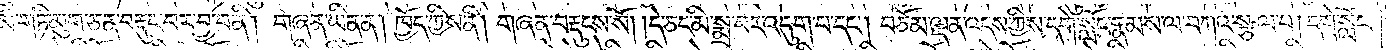མི་གཏི་མུག་ཅན་བརྡུང་བར་བྱ་བ་ནི། གཞན་ཡིན་ན། ཁྱོད་ཀྱིས་ནི། གཞན་བརྡུངས་སོ། །དེ་ཅང་མི་སྨྲ་བར་འདུག་པ་དང༌། བཅོམ་ལྡན་འདས་ཀྱིས་དགེ་སློང་རྣམས་ལ་བཀའ་སྩལ་པ། དགེ་སློང་
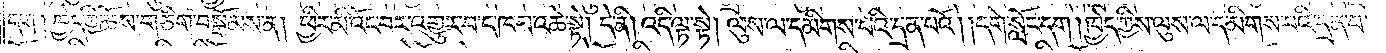དག །ཁྱེད་ཀྱི་ཆོས་གཅིག་བསྒོམས་ན། ཕྱིར་མི་འོང་བར་འགྱུར་བ་ང་ཁས་འཆེ་སྟེ། དེ་ནི། འདི་ལྟ་སྟེ། ལུས་ལ་དམིགས་པའི་དྲན་པའོ། །དགེ་སློང་དག །ཁྱེད་ཀྱིས་ལུས་ལ་དམིགས་པའི་དྲན་པ་
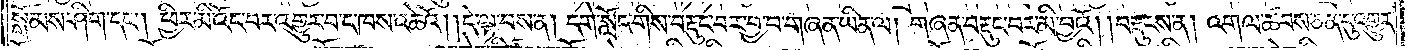སྒོམས་ཤིག་དང༌། ཕྱིར་མི་འོང་བར་འགྱུར་བ་ང་ཁས་འཆེའོ། །དེ་ལྟ་བས་ན། དགེ་སློང་གིས་བརྡུང་བར་བྱ་བ་གཞན་ཡིན་ལ། གཞན་བརྡུང་བར་མི་བྱའོ། །བརྡུངས་ན། འགལ་ཚབས་ཅན་དུ་འགྱུར་
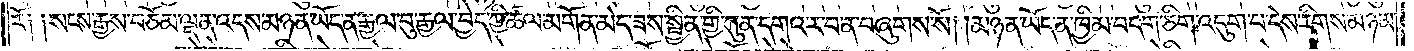རོ༑ ༑སངས་རྒྱས་བཅོམ་ལྡན་འདས་མཉན་ཡོད་ན་རྒྱལ་བུ་རྒྱལ་བྱེད་ཀྱི་ཚལ་མགོན་མེད་ཟས་སྦྱིན་གྱི་ཀུན་དགའ་ར་བ་ན་བཞུགས་སོ། །མཉན་ཡོད་ན་ཁྱིམ་བདག་ཅིག་འདུག་པ་དེས་རིགས་མཉམ་
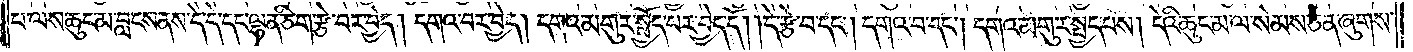པ་ལས་ཆུང་མ་བླངས་ནས་དེ་དེ་དང་ལྷན་ཅིག་རྩེ་བར་བྱེད། དགའ་བར་བྱེད། དགའ་མགུར་སྤྱོད་པར་བྱེད་དོ། །དེ་རྩེ་བ་དང༌། དགའ་བ་དང༌། དགའ་མགུར་སྤྱད་པས། དེའི་ཆུང་མ་ལ་སེམས་ཅན་ཞུགས་
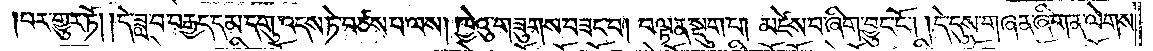པར་གྱུར་ཏོ། །དེ་ཟླ་བ་བརྒྱད་དམ་དགུ་འདས་ཏེ་བཙས་པ་ལས། ཁྱེའུ་གཟུགས་བཟང་བ། བལྟ་ན་སྡུག་པ། མཛེས་པ་ཞིག་བྱུང་ངོ༌། །དེ་དུས་གཞན་ཞིག་ན་ལེགས་
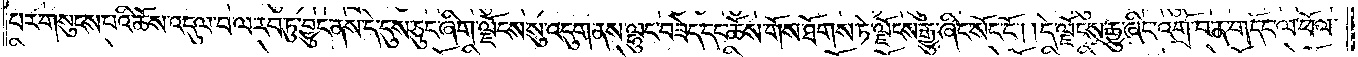པར་གསུངས་པའི་ཆོས་འདུལ་བ་ལ་རབ་ཏུ་བྱུང་ནས་དེ་དུས་ཅུང་ཞིག་ལྗོངས་སུ་འདུག་ནས་ལྷུང་བཟེད་དང་ཆོས་གོས་ཐོགས་ཏེ་ལྗོངས་རྒྱུ་ཞིང་སོང་ངོ༌། །དེ་ལྗོངས་རྒྱུ་ཞིང་འགྲོ་བ་ན་གདོང་ལ་ཕོལ་
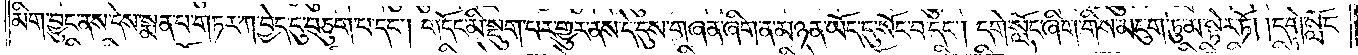མིག་བྱུང་ནས་དེས་སྨན་པ་གཏར་ཀ་བྱེད་དུ་བཅུག་པ་དང༌། གདོང་མི་སྡུག་པར་གྱུར་ནས་དེ་དུས་གཞན་ཞིག་ན་མཉན་ཡོད་དུ་སོང་བ་དང༌། དགེ་སློང་ཞིག་གིས་མཇུག་ཏུ་མ་སྟེར་ཏོ། །དགེ་སློང་
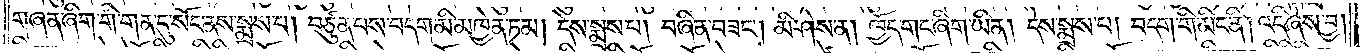གཞན་ཞིག་གི་གན་དུ་སོང་ནས་སྨྲས་པ། བཙུན་པས་བདག་མི་མཁྱེན་ཏམ། དེས་སྨྲས་པ། བཞིན་བཟང༌། མི་ཤེས་ན། ཁྱོད་གང་ཞིག་ཡིན། དེས་སྨྲས་པ། བདག་གི་མིང་ནི། འདི་ཞེས་བྱ།
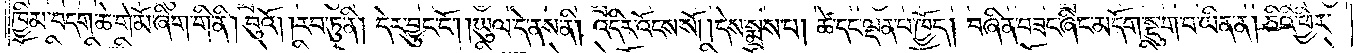ཁྱིམ་བདག་ཆེ་གེ་མོ་ཞིག་གི་ནི། བུའོ། །རབ་ཏུ་ནི། དེར་བྱུང་ངོ༌། །ཡུལ་དེ་ནས་ནི། འདིར་འོངས་སོ། །དེས་སྨྲས་པ། ཚེ་དང་ལྡན་པ་ཁྱོད། བཞིན་བཟང་ཞིང་མདོག་སྡུག་པ་ཡིན་ན། ཅིའི་ཕྱིར་
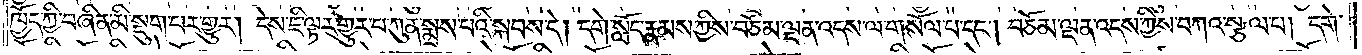ཁྱོད་ཀྱི་བཞིན་མི་སྡུག་པར་གྱུར། དེས་ཇི་ལྟར་གྱུར་པ་ཀུན་སྨྲས་པའི་སྐབས་དེ། དགེ་སློང་རྣམས་ཀྱིས་བཅོམ་ལྡན་འདས་ལ་གསོལ་པ་དང༌། བཅོམ་ལྡན་འདས་ཀྱིས་བཀའ་སྩལ་པ། དགེ་
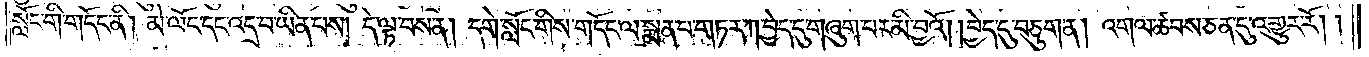སློང་གི་གདོང་ནི། མེ་ལོང་དང་འདྲ་བ་ཡིན་པས། དེ་ལྟ་བས་ན། དགེ་སློང་གིས་གདོང་ལ་སྨན་པ་གཏར་ཀ་བྱེད་དུ་གཞུག་པར་མི་བྱའོ། །བྱེད་དུ་བཅུག་ན། འགལ་ཚབས་ཅན་དུ་འགྱུར་རོ། །
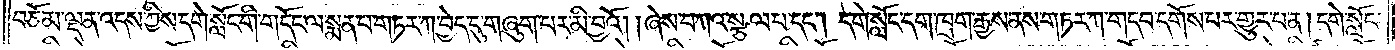བཅོམ་ལྡན་འདས་ཀྱིས་དགེ་སློང་གི་གདོང་ལ་སྨན་པ་གཏར་ཀ་བྱེད་དུ་གཞུག་པར་མི་བྱའོ། །ཞེས་བཀའ་སྩལ་པ་དང༌། དགེ་སློང་དག་ཁྲག་རྒྱས་ནས་གཏར་ཀ་གདབ་དགོས་པར་གྱུར་པ་ན། དགེ་སློང་
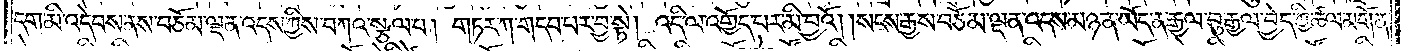དག་མི་འདེབས་ནས་བཅོམ་ལྡན་འདས་ཀྱིས་བཀའ་སྩལ་པ། གཏར་ཀ་གདབ་པར་བྱ་སྟེ། འདི་ལ་འགྱོད་པར་མི་བྱའོ། །སངས་རྒྱས་བཅོམ་ལྡན་འདས་མཉན་ཡོད་ན་རྒྱལ་བུ་རྒྱལ་བྱེད་ཀྱི་ཚལ་མགོན་
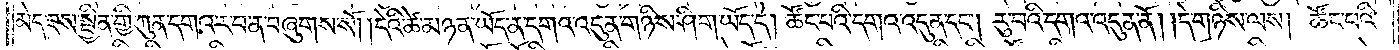མེད་ཟས་སྦྱིན་གྱི་ཀུན་དགའ་ར་བ་ན་བཞུགས་སོ། །དེའི་ཚེ་མཉན་ཡོད་ན་དགའ་འདུན་གཉིས་ཤིག་ཡོད་དེ། ཚོང་པའི་དགའ་འདུན་དང༌། རུ་བའི་དགའ་འདུན་ནོ། །དེ་གཉིས་ལས། ཚོང་པའི་
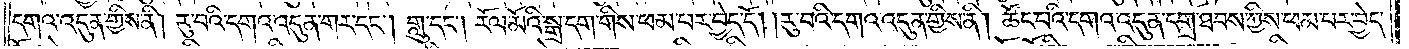དགའ་འདུན་གྱིས་ནི། རུ་བའི་དགའ་འདུན་གར་དང༌། གླུ་དང༌། རོལ་མོའི་སྒྲ་དག་གིས་ཕམ་པར་བྱེད་དོ། །རུ་བའི་དགའ་འདུན་གྱིས་ནི། ཚོང་པའི་དགའ་འདུན་དགྲ་ཐབས་ཀྱིས་ཕམ་པར་བྱེད་
